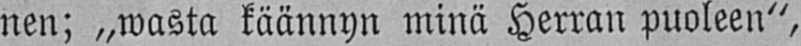nen; „wasta käännyn minä Herran puoleen",
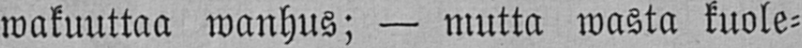wakuuttaa wanhus; — mutta wasta kuole-
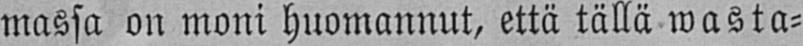massa on moni huomannut, että tällä wasta-
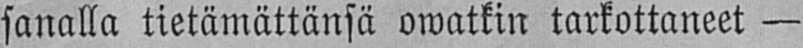sanalla tietämättänsä owatkin karkottaneet —
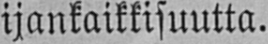ijankaikkisuutta.
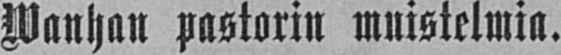Wanhan pastorin muistelmia.
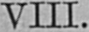VIII.
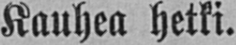Kauhea hetki.
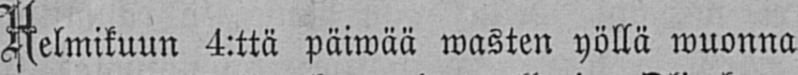Helmikuun 4:ttä päiwää wasten yöllä wuonna
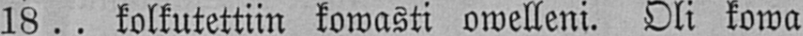18.. kolkutettiin kowasti owelleni. Oli kowa
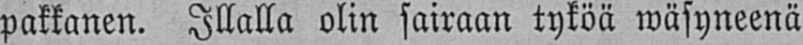pakkanen. Illalla olin sairaan tyköä wäsyneenä
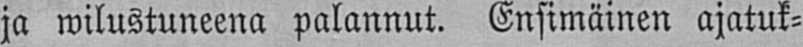ja wilustuneena palannut. Ensimäinen ajatuk-
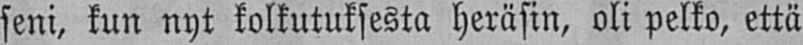seni, kun nyt kolkutuksesta heräsin, oli pelko, että
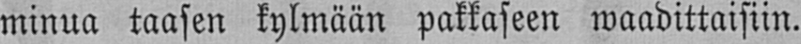minua taasen kylmään pakkaseen waadittaisiin.
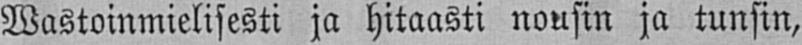Wastoinmielisesti ja hitaasti nousin ja tunsin,
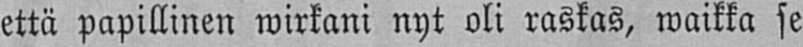että papillinen wirkani nyt oli raskas, waikka se
